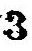3
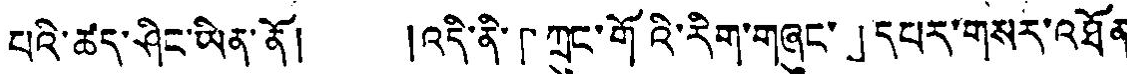པའི་ཚད་ཤིང་ཡིན་ནོ། །འདི་ནི་「ཀྲུང་གོའི་རིག་གཞུང་」དཔར་གསར་འཐོན་
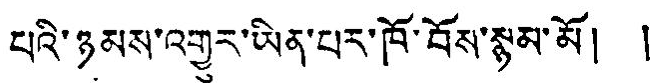པའི་ཉམས་འགྱུར་ཡིན་པར་ཁོ་བོས་སྙམ་མོ། །
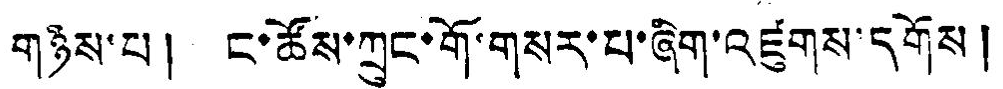གཉིས་པ། ང་ཚོས་ཀྲུང་གོ་གསར་པ་ཞིག་འཛུགས་དགོས།
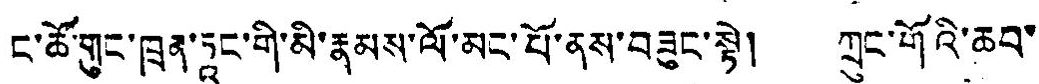ང་ཚོ་གུང་ཁྲན་ཏཱང་གི་མི་རྣམས་ལོ་མང་པོ་ནས་བཟུང་སྟེ། ཀྲུང་གོའི་ཆབ་
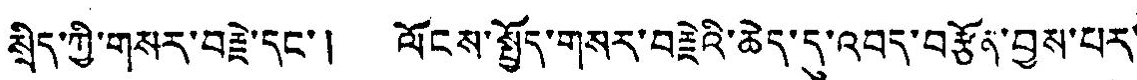སྲིད་ཀྱི་གསར་བརྗེ་དང་། ལོངས་སྤྱོད་གསར་བརྗེའི་ཆེད་དུ་འབད་བརྩོན་བྱས་པར་
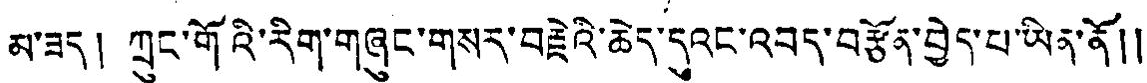མ་ཟད། ཀྲུང་གོའི་རིག་གཞུང་གསར་བརྗེའི་ཆེད་དུའང་འབད་བརྩོན་བྱེད་པ་ཡིན་ནོ།།
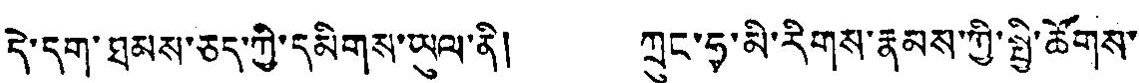དེ་དག་ཐམས་ཅད་ཀྱི་དམིགས་ཡུལ་ནི། ཀྲུང་ཧྭ་མི་རིགས་རྣམས་ཀྱི་སྤྱི་ཚོགས་
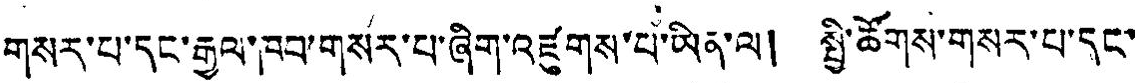གསར་པ་དང་རྒྱལ་བབ་གསར་པ་ཞིག་འཛུགས་པ་ཡིན་ལ། སྤྱི་ཚོགས་གསར་པ་དང་།
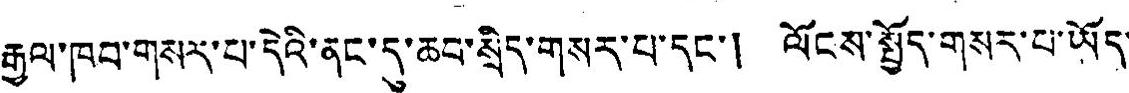རྒྱལ་ཁབ་གསར་པ་དེའི་ནང་དུ་ཆབ་སྲིད་གསར་པ་དང་། ལོངས་སྤྱོད་གསར་པ་ཡོད་
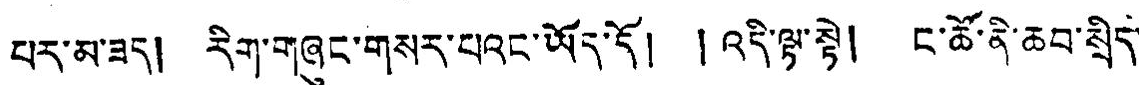པར་མ་ཟད། རིག་གཞུང་གསར་པའང་ཡོར་དོ། །འདི་ལྟ་སྟེ། ང་ཚོ་ནི་ཆབ་སྲིད་
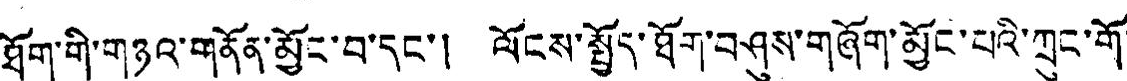ཐོག་གི་གཉའ་གནོན་མྱོང་བ་དང་། ལོངས་སྤྱོད་ཐོག་བཤུས་གཞོག་མྱོང་པའི་ཀྲུང་གོ་
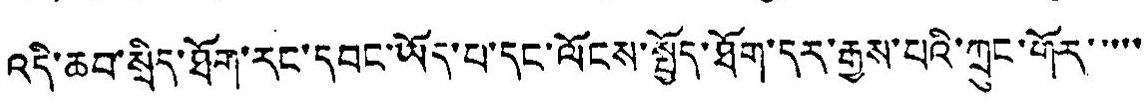འདི་ཆབ་སྲིད་ཐོག་རང་དབང་ཡོད་པ་དང་ལོངས་སྤྱོད་ཐོག་དར་རྒྱས་པའི་ཀྲུང་གོར་་་་་
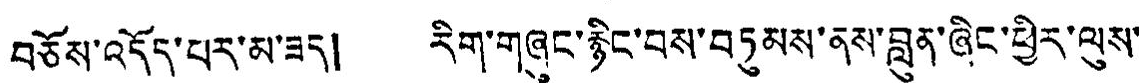བཅོས་འདོད་པར་མ་ཟད། རིག་གཞུང་རྙིང་བས་བཏུམས་ནས་བླུན་ཞིང་ཕྱིར་ལུས་
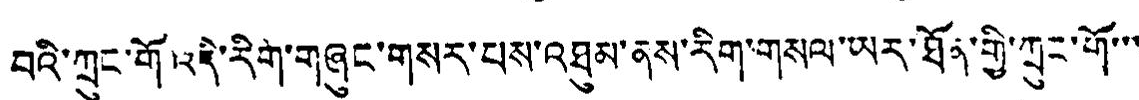བའི་ཀྲུང་གོའདི་རིག་གཞུང་གསར་པས་འཐུམ་ནས་རིག་གསལ་ཡར་ཐོན་གྱི་ཀྲུང་གོ་་་
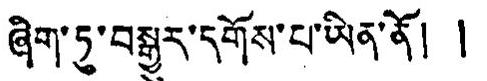ཞིག་ཏུ་བསྒྱུར་དགོས་པ་ཡིན་ནོ། །
